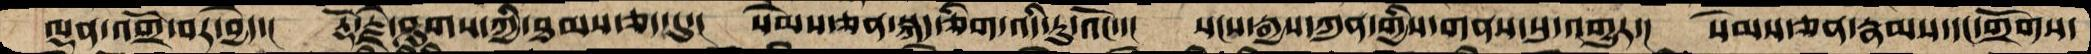ལྡན་འགྲོ་བར་བྱེད་།  རྡོ་རྗེ་ཤུགས་ཀྱི་ཐམས་ཅད་དུ་།  སེམས་ཅན་སྐད་ཅིག་འདི་རུ་འོང་་།  སངས་རྒྱས་ཀུན་གྱིས་གནས་སུ་འགྱུར་།  སེམས་ཅན་རྣམས་དང་གྲོགས་
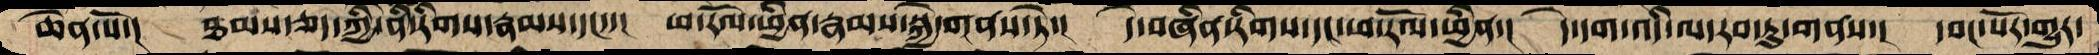ཆེན་པོ་།  ཐམས་ཅད་ཀྱི་ནི་རིགས་རྣམས་དང་་།  ཕ་་རོལ་ཕྱིན་རྣམས་སྐྱེ་གནས་ཏེ་།  དེ་བཞིན་རིགས་དང་ཕ་རོལ་ཕྱིན་།  དེ་དག་འདི་ལ་རབ་ཏུ་གནས་།  དབང་པོར་གྱུར་
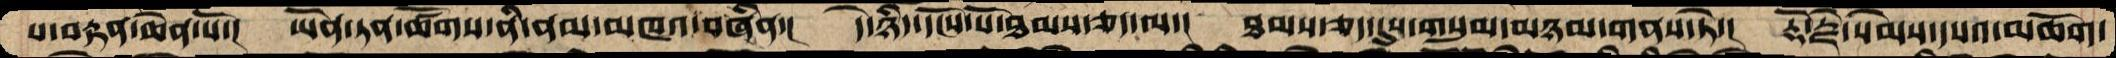པ་བརྟན་ཆེན་པོ་།  ཡོན་ཏན་ཚོགས་ནི་ནམ་མཁའ་བཞིན་།  དེ་ཉིད་དངོས་པོ་ཐམས་ཅད་ལ་།  ཐམས་ཅད་དུས་གསུམ་མཉམ་གནས་ཏེ་།  རྡོ་རྗེ་སེམས་དཔའ་མཆོག་
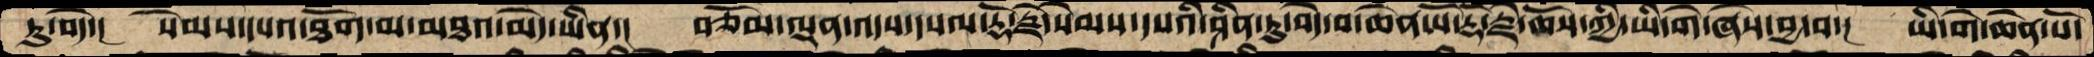ཏུ་བདེ་།   སེམས་དཔའ་ཐོག་མ་མཐའ་མེད་ཡིན་།   བཅོམ་ལྡན་འདས་དཔལ་རྡོ་རྗེ་སེམས་དཔའི་ཤིན་ཏུ་བདེ་བ་ཆེན་པོ་རྡོ་རྗེ་ཆོས་ཀྱི་ཡི་གེ་ཞེས་བྱ་བ་།  ཡི་གེ་ཆེན་པོ་
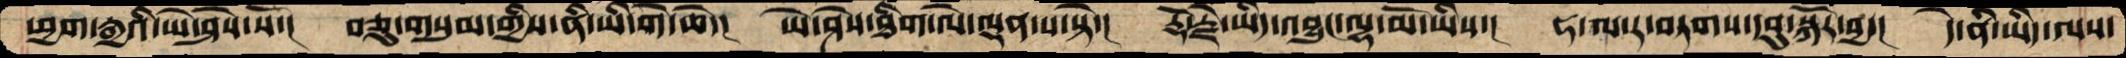ཕྱག་རྒྱའི་ཡེ་ཤེས་སོ་།   བཅུ་གསུམ་གྱིས་ནི་ཡི་གེ་ཆེ་།  ཡེ་ཤེས་ཐིག་ལེ་ལྡན་པ་སྟེ་།  རྡོ་རྗེ་ཡིད་འབྱུང་ལྷ་མོ་ཡིས་།  ཧ་ལ་ར་བཏགས་དབུ་སྐོར་བྱ་།  དེ་ནི་ཡིད་ལས་
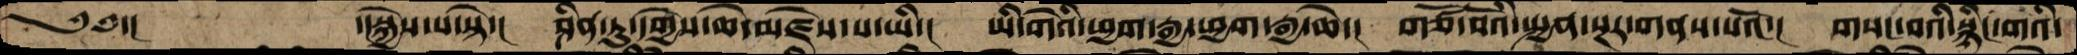༄༅་།   ་།སྐྱེས་པ་སྟེ་།   ཤིན་ཏུ་དགྱེས་ཆེ་མཛེས་པ་ཡི་།  ཡི་གེའི་ཕྱག་རྒྱ་ཕྱག་རྒྱ་ཆེ་།  གཙོ་བོའི་སྤྱན་སྔར་གནས་པའོ་།  གསང་བའི་སྙིང་གའི་
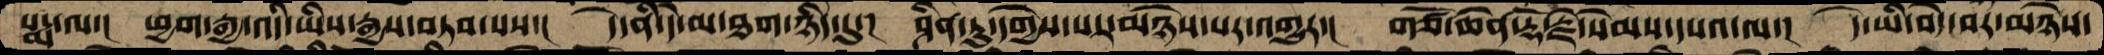པདྨ་ལ་།  ཕྱག་རྒྱ་འདི་ཡིས་རྒྱས་བཏབ་པས་།  དེ་ནི་དེ་མ་ཐག་ཉིད་དུ་།  ཤིན་ཏུ་དགྱེས་པར་མཉེས་པར་འགྱུར་།  གཙོ་ཆེན་རྡོ་རྗེ་སེམས་དཔའ་ལ་།  དེ་ཡི་བདེ་བར་མཉེས་
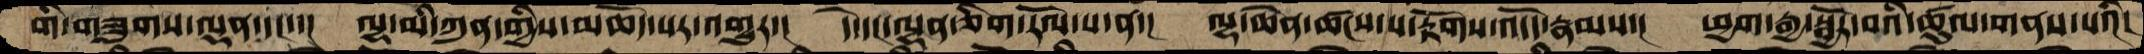གི་གཟུགས་ལྡན་དང་་།  ལྷ་མི་ཀུན་གྱིས་མཆོད་པར་འགྱུར་།  དེ་དང་ལྷན་ཅིག་རོལ་པ་ན་།  ལྷ་ཆེན་ཚངས་པ་རྟོགས་འདོད་རྣམས་།  ཕྱག་རྒྱ་སྦྱོར་བའི་ཚུལ་གནས་པའི།
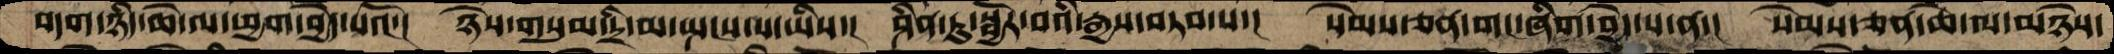བདག་ཉིད་ཆེ་ལ་ཕྱག་བྱེད་པའོ་།  ཉེས་གསུམ་དྲི་མ་སྤངས་པ་ཡིས་།  ཤིན་ཏུ་སྦྱོར་བའི་རྒྱས་བཏབ་པ་།  སེམས་ཅན་གང་ཞིག་བྱེད་པ་ན་།  སེམས་ཅན་ཆེ་ལ་མཉེས་
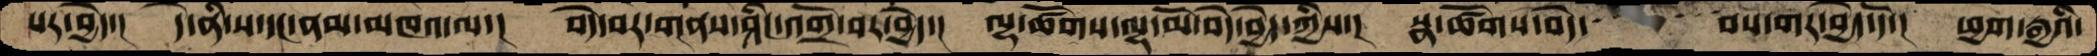པར་བྱེད་།  དེ་ནི་ས་དང་ནམ་མཁའ་ལ་།  བདེ་བར་གནས་ཤིང་འགྲོ་བར་བྱེད་།  ལྷ་ཚོགས་ལྷ་མོ་བདེ་བྱེད་ཀྱིས་།  སྣ་ཚོགས་བེད་   བས་གར་བྱེད་དོ་།  ཕྱག་རྒྱའི་
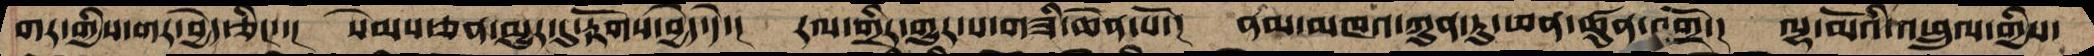གར་གྱིས་གར་བྱེད་ཅིང་་།  སེམས་ཅན་མྱུར་དུ་རྟོགས་བྱེད་དེ་།  རལ་གྲིར་གྱུར་པ་གཟི་ཆེན་པོ་།  ནམ་མཁའ་ཀུན་ཏུ་ཕན་ཚུན་འགྲོ་།  ལྷ་མོའི་འཕྲུལ་གྱིས་
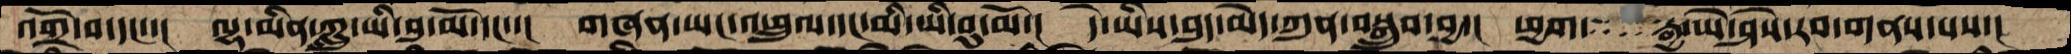འགྲོ་བ་དང་་།  ལྷ་མིན་ཀླུ་ཡི་བུ་མོ་དང་་།  གཞན་ཡང་འཕྲུལ་དང་མི་ཡི་བུ་མོ་།  དེ་ཡིས་བུད་མེད་ཀུན་བསྒྲུབ་བྱ་།  ཕྱག་  རྒྱ་ཡེ་ཤེས་རབ་གནས་པས་།
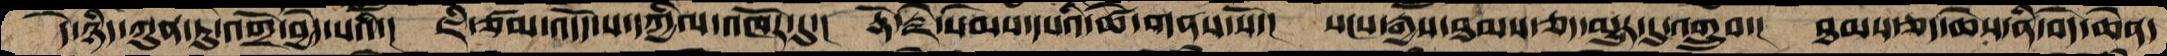དེ་ཉིད་ཀུན་ཏུ་འགྲོ་བྱེད་པའི་།   ཇི་ཙམ་འདོད་པ་དཀྱིལ་འཁོར་དུ་།  རྡོ་རྗེ་སེམས་དཔའི་ཚེ་གནས་སོ་།  སངས་རྒྱས་ཐམས་ཅད་མྱུར་དུ་འགྲུབ་།  ཐམས་ཅད་ཆེས་ནི་བདེ་ཆེན་
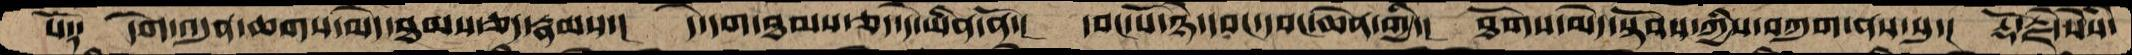པོ༑    དགེ་འདུན་ཆགས་མེད་ཐམས་ཅད་རྣམས་།  དེ་དག་ཐམས་ཅད་དེ་ཡིན་ནོ་།  དབང་པོ་ཉེ་དབང་དབང་ཆེན་གྱི་།  ཐོགས་མེད་སྟོབས་ཀྱིས་བཀུག་ནས་སུ་།  རྡོ་རྗེ་སེཾས་
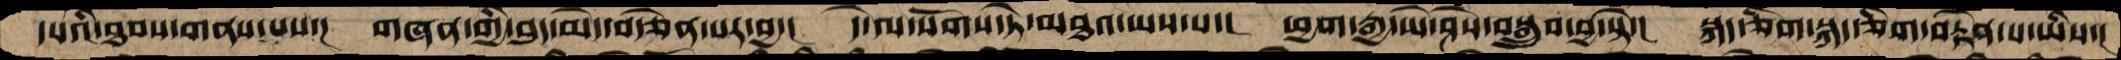དཔའི་ཐབས་གནས་པས་།  གཞན་གྱི་བུད་མེད་བརྩེན་པར་བྱ་།  དེ་ལ་སོགས་ཏེ་མཐའ་ཡས་པ་།  ཕྱག་རྒྱ་ཡེ་ཤེས་བསྒྲུབ་བྱ་སྟེ་།  སྐད་ཅིག་སྐད་ཅིག་བརྟེན་པ་ཡིས་།
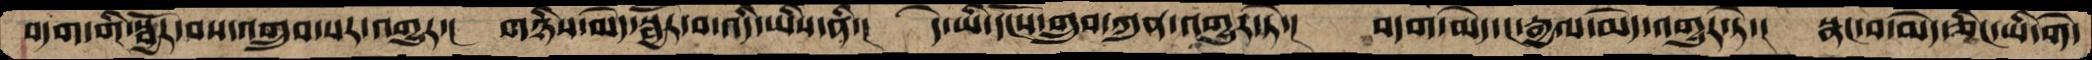བདག་གི་སྦྱོར་བས་འགྲུབ་པར་འགྱུར་།   གཉིས་མེད་སྦྱོར་བ་འདི་ཡིས་ནི་།   དེ་ཡི་དངོས་གྲུབ་ཀུན་འགྱུར་ཏེ་།  བདག་མེད་ང་རྒྱལ་མེད་འགྱུར་ཏེ་།  སྣང་བ་མེད་ཅིང་ཡི་གེ་
